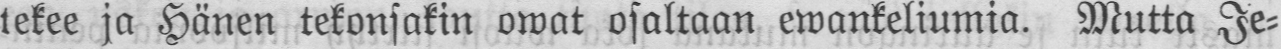tekee ja Hänen tekonsakin owat osaltaan ewankeliumia. Mutta Je-
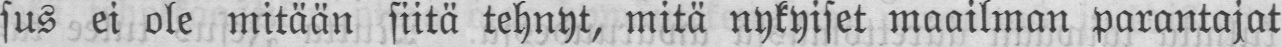sus ei ole mitään siitä tehnyt, mitä nykyiset maailman parantajat
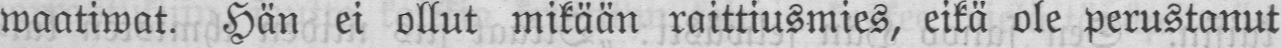waaliwat. Hän ei ollut mikään raittiusmies, eikä ole perustanut
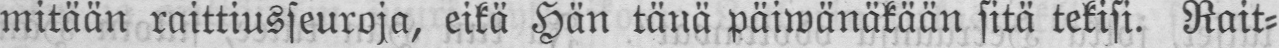mitään raittiusseuroja, eikä Hän tänä päiwänäkään sitä tekisi. Rait-
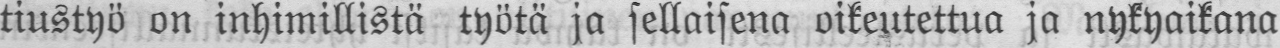tiustyö on inhimillistä työtä ja sellaisena oikeutettua ja nykyaikana
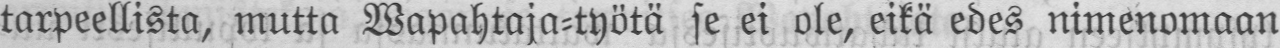tarpeellista, mutta Wapahtaja-työtä se ei ole, eikä edes nimenomaan
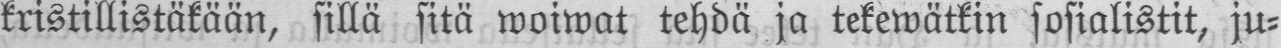kristillistäkään, sillä sitä woiwat tehdä ja tekewätkin sosialistit, ju-
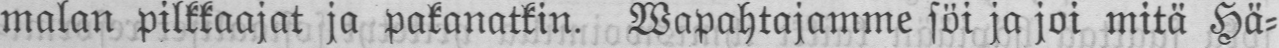malan pilkkaajat ja pakanatkin. söi ja joi mitä Hä-
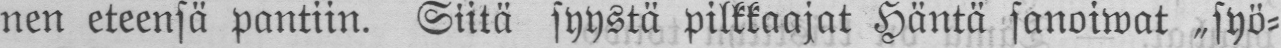nen eteensä pantiin. Siitä syystä pilkkaajat Häntä sanoiwat syö-
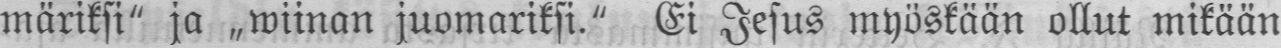märiksi" ja wiinan juomariksi." Ei Jesus myöskään ollut mikään
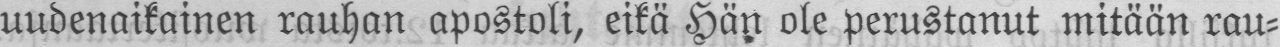uudenaikainen rauhan apostoli, eikä Hän ole perustanut mitään rau-
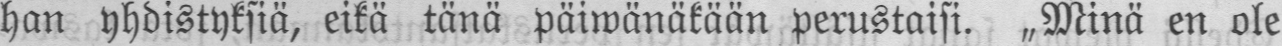han yhdistyksiä, eikä tänä päiwänäkään perustaisi. Minä en ole
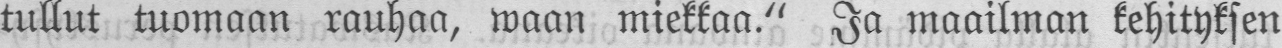tullut tuomaan rauhaa, waan miekkaa." Ja maailman kehityksen
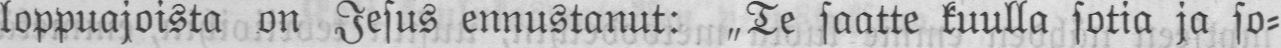loppuajoista on Jesus ennustanut: „Te saatte kuulla sotia ja so-
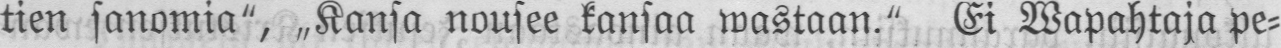tien sanomia", „Kansa nousee kansaa wastaan." Ei Wapahtaja pe-
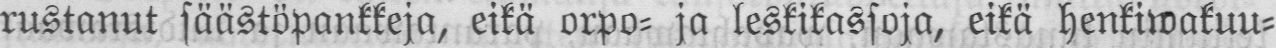rustanut säästöpankkeja, eikä orpo- ja leskikassoja, eikä henkiwakuu-
